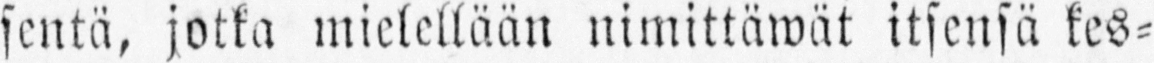sentä, jotka mielellään nimittäwät itsensä kes-
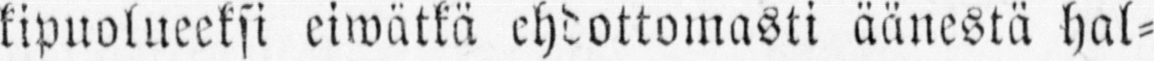kipuolueeksi eiwätkä ehdottomasti äänestä hal-
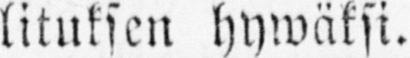lituksen hywäksi.
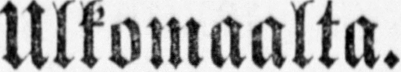Ulkomaalta.
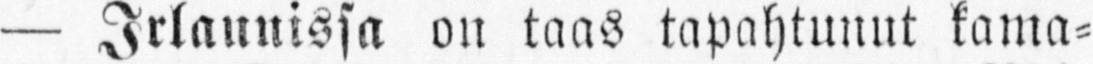— Irlannissa on taas tapahtunut kama-
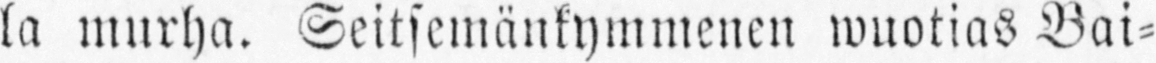la murha. Seitsemänkymmenen wuotias Bai-
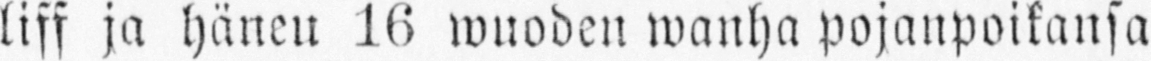liff ja häneu 16 wuoden wanha pojanpoikansa
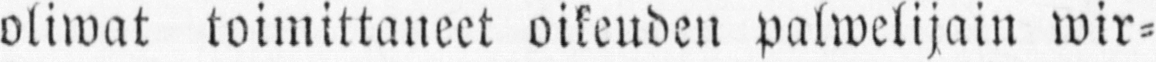oliwat toimittaneet oikeuden palwelijain wir-
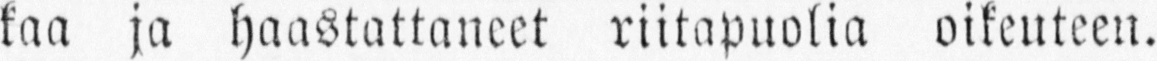kaa ja haastattaneet riitapuolia oikeuteen.
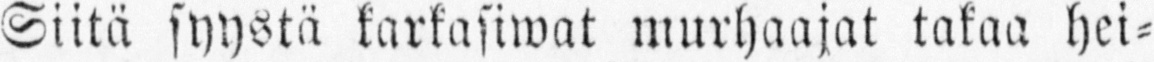Siitä syystä karkasiwat murhaajat takaa hei-
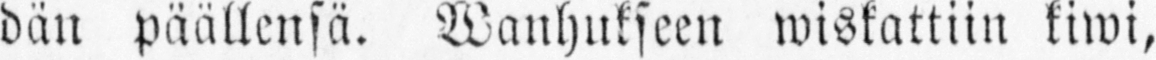dän päällensä. Wanhukseen wiskattiin kiwi,
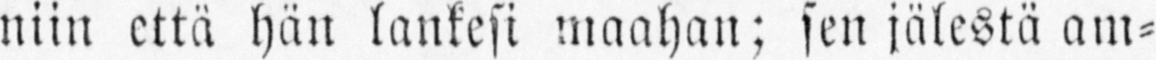niin että hän lankesi maahan; sen jälestä am-
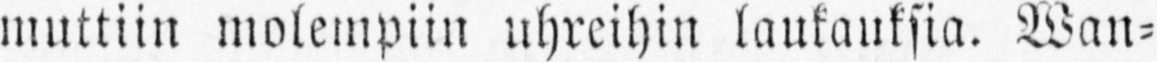muttiin molempiin uhreihin laukauksia. Wan-
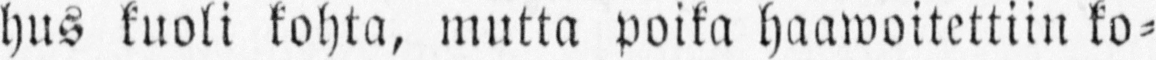hus kuoli kohta, mutta poika haawoitettiin ko-
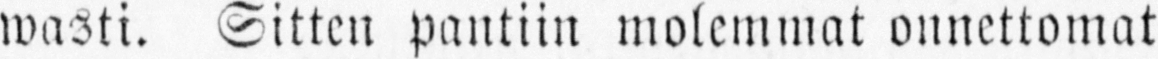wasti. Sitten pantiin molemmat onnettomat
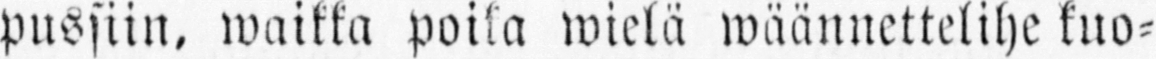pussiin, waikka poika wielä wäännettelihe kuo-
